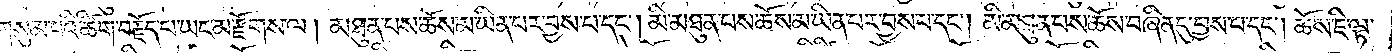གསུམ་པའི་ཚིག་བརྗོད་པ་ཡང་མ་རྫོགས་ལ། མཐུན་པས་ཆོས་མ་ཡིན་པར་བྱས་པ་དང༌། མི་མཐུན་པས་ཆོས་མ་ཡིན་པར་བྱས་པ་དང༌། མི་མཐུན་པས་ཆོས་བཞིན་དུ་བྱས་པ་དང༌། ཆོས་ཇི་ལྟ་
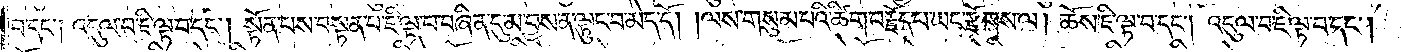བ་དང༌། འདུལ་བ་ཇི་ལྟ་བ་དང༌། སྟོན་པས་བསྟན་པ་ཇི་ལྟ་བ་བཞིན་དུ་མ་བྱས་ན་ལྟུང་བ་མེད་དོ། །ལས་གསུམ་པའི་ཚིག་བརྗོད་པ་ཡང་རྫོགས་ལ། ཆོས་ཇི་ལྟ་བ་དང༌། འདུལ་བ་ཇི་ལྟ་བ་དང༌།
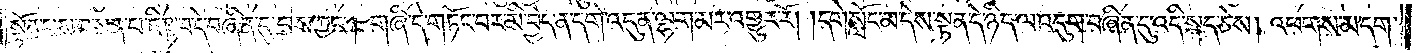སྟོན་པས་བསྟན་པ་ཇི་ལྟ་བ་དེ་བཞིན་དུ་བྱས་ཀྱང༌། གཞི་དེ་གཏོང་བར་མི་བྱེད་ན་དགེ་འདུན་ལྷག་མར་འགྱུར་རོ། །དགེ་སློང་མ་དེས་སྟན་དེ་ཉིད་ལ་འདུག་བཞིན་དུ་འདི་སྐད་ཅེས། འཕགས་མ་དག་
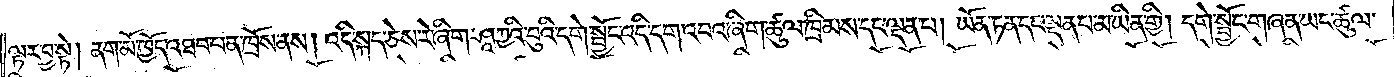ལྟར་བྱ་སྟེ། ནག་མོ་ཁྱོད་འཐབ་པ་ན་ཁྲོས་ནས། འདི་སྐད་ཅེས་རེ་ཞིག་ཤཱཀྱའི་བུའི་དགེ་སྦྱོང་འདི་དག་འབའ་ཞིག་ཚུལ་ཁྲིམས་དང་ལྡན་པ། ཡོན་ཏན་དང་ལྡན་པ་མ་ཡིན་གྱི། དགེ་སྦྱོང་གཞན་ཡང་ཚུལ་
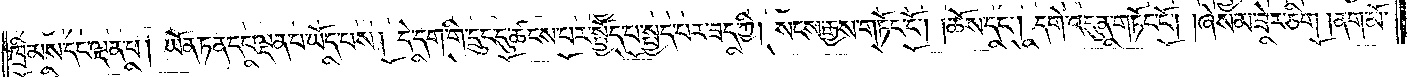ཁྲིམས་དང་ལྡན་པ། ཡོན་ཏན་དང་ལྡན་པ་ཡོད་པས། དེ་དག་གི་དྲུང་དུ་ཚངས་པར་སྤྱོད་པ་སྤྱད་པར་ཟད་ཀྱི། སངས་རྒྱས་གཏོང་ངོ༌། །ཆོས་དང༌། དགེ་འདུན་གཏོང་ངོ༌། །ཞེས་མ་ཟེར་ཅིག །ནག་མོ་
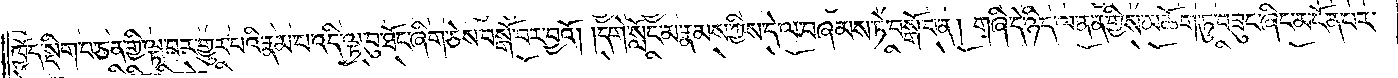ཁྱོད་སྡིག་པ་ཅན་གྱི་ལྟ་བར་གྱུར་པའི་རྣམ་པ་འདི་ལྟ་བུ་ཐོང་ཞིག་ཅེས་བསྒོ་བར་བྱའོ། །དགེ་སློང་མ་རྣམས་ཀྱིས་དེ་ལ་བཞམས་ཏེ་བསྒོ་བ་ན། གཞི་དེ་ཉིད་ལ་ནན་གྱིས་མཆོག་ཏུ་བཟུང་ཞིང་མངོན་པར་
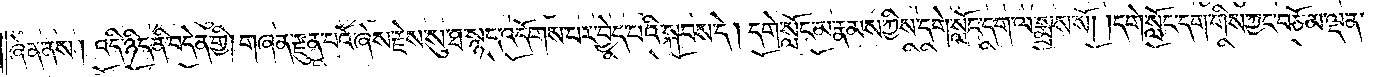ཞེན་ནས། འདི་ཉིད་ནི་བདེན་གྱི། །གཞན་རྫུན་པའོ་ཞེས་རྗེས་སུ་ཐ་སྙད་འདོགས་པར་བྱེད་པའི་སྐབས་དེ། དགེ་སློང་མ་རྣམས་ཀྱིས་དགེ་སློང་དག་ལ་སྨྲས་སོ། །དགེ་སློང་དག་གིས་ཀྱང་བཅོམ་ལྡན་
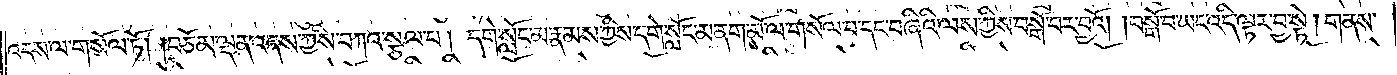འདས་ལ་གསོལ་ཏོ། །བཅོམ་ལྡན་འདས་ཀྱིས་བཀའ་སྩལ་པ། དགེ་སློང་མ་རྣམས་ཀྱིས་དགེ་སློང་མ་ནག་མོ་ལ་གསོལ་པ་དང་བཞིའི་ལས་ཀྱིས་བསྒོ་བར་བྱའོ། །བསྒོ་བ་ཡང་འདི་ལྟར་བྱ་སྟེ། གནས་
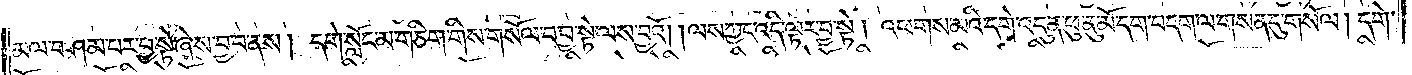མལ་བཤམ་པར་བྱ་སྟེ་ཞེས་བྱ་བ་ནས། དགེ་སློང་མ་གཅིག་གིས་གསོལ་བ་བྱ་སྟེ་ལས་བྱའོ། །ལས་ཀྱང་འདི་ལྟར་བྱ་སྟེ། འཕགས་མའི་དགེ་འདུན་ཕུ་ནུ་མོ་དག་བདག་ལ་གསན་དུ་གསོལ། དགེ་
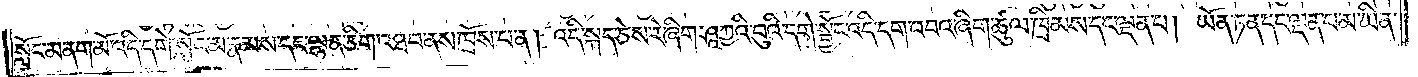སློང་མ་ནག་མོ་འདི་དགེ་སློང་མ་རྣམས་དང་ལྷན་ཅིག་འཐབ་ནས་ཁྲོས་པ་ན། འདི་སྐད་ཅེས་རེ་ཞིག་ཤཱཀྱའི་བུའི་དགེ་སྦྱོང་འདི་དག་འབའ་ཞིག་ཚུལ་ཁྲིམས་དང་ལྡན་པ། ཡོན་ཏན་དང་ལྡན་པ་མ་ཡིན་
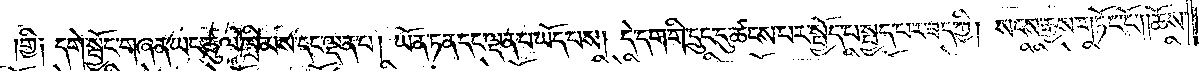གྱི༑ དགེ་སྦྱོང་གཞན་ཡང་ཚུལ་ཁྲིམས་དང་ལྡན་པ། ཡོན་ཏན་དང་ལྡན་པ་ཡོད་པས། དེ་དག་གི་དྲུང་དུ་ཚངས་པར་སྤྱོད་པ་སྤྱད་པར་ཟད་ཀྱི། སངས་རྒྱས་གཏོང་ངོ༌། །ཆོས་
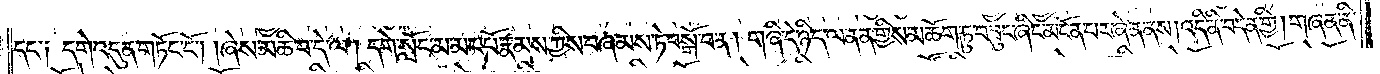དང་༑ དགེ་འདུན་གཏོང་ངོ༌། །ཞེས་མཆི་བ་དེ་ལ། དགེ་སློང་མ་མང་པོ་རྣམས་ཀྱིས་བཞམས་ཏེ་བསྒོ་བ་ན། གཞི་དེ་ཉིད་ལ་ནན་གྱིས་མཆོག་ཏུ་བཟུང་ཞིང་མངོན་པར་ཞེན་ནས། འདི་ནི་བདེན་གྱི། གཞན་ནི་
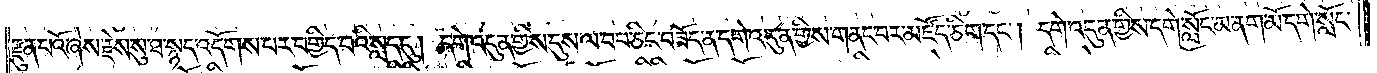རྫུན་པའོ་ཞེས་རྗེས་སུ་ཐ་སྙད་འདོགས་པར་བགྱིད་པའི་སླད་དུ། དགེ་འདུན་གྱིས་དུས་ལ་བབ་ཅིང་བཟོད་ན་དགེ་འདུན་གྱིས་གནང་བར་མཛོད་ཅིག་དང༌། དགེ་འདུན་གྱིས་དགེ་སློང་མ་ནག་མོ་དགེ་སློང་
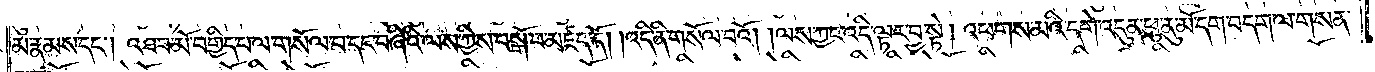མ་རྣམས་དང༌། འཐབ་མོ་བགྱིད་པ་ལ་གསོལ་བ་དང་བཞིའི་ལས་ཀྱིས་བསྒོ་བ་མཛད་དོ། །འདི་ནི་གསོལ་བའོ། །ལས་ཀྱང་འདི་ལྟར་བྱ་སྟེ། འཕགས་མའི་དགེ་འདུན་ཕུ་ནུ་མོ་དག་བདག་ལ་གསན་
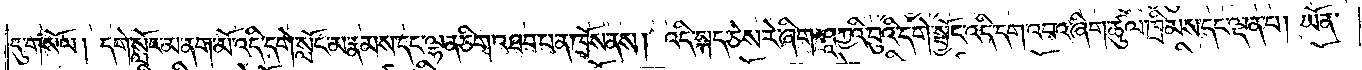དུ་གསོལ། དགེ་སློང་མ་ནག་མོ་འདི་དགེ་སློང་མ་རྣམས་དང་ལྷན་ཅིག་འཐབ་པ་ན་ཁྲོས་ནས། འདི་སྐད་ཅེས་རེ་ཞིག་ཤཱཀྱའི་བུའི་དགེ་སྦྱོང་འདི་དག་འབའ་ཞིག་ཚུལ་ཁྲིམས་དང་ལྡན་པ། ཡོན་
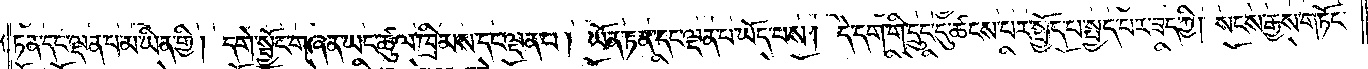ཏན་དང་ལྡན་པ་མ་ཡིན་གྱི། དགེ་སྦྱོང་གཞན་ཡང་ཚུལ་ཁྲིམས་དང་ལྡན་པ། ཡོན་ཏན་དང་ལྡན་པ་ཡོད་པས། དེ་དག་གི་དྲུང་དུ་ཚངས་པར་སྤྱོད་པ་སྤྱད་པར་ཟད་ཀྱི། སངས་རྒྱས་གཏོང་
